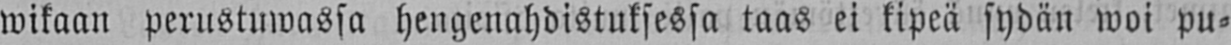wikaan perustuwassa hengenahdistuksessa taas ei kipeä sydän woi pu-
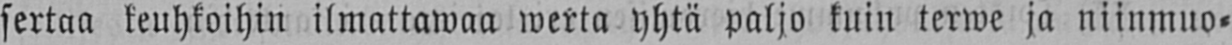sertaa keuhkoihin ilmattawaa werta yhtä paljo kuin terwe ja niinmuo-
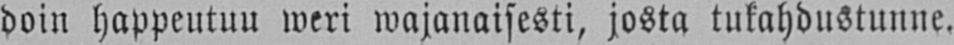doin happeutuu weri wajanaisesti, josta tukahdustunne.
